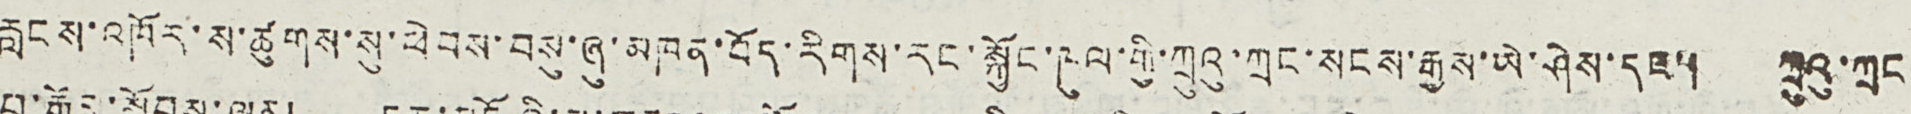རླངས་འཁོར་ས་ཚུགས་སུ་ཕེབས་བསུ་ཞུ་མཁན་བོད་རིགས་རང་སྐྱོང་ཁུལ་གྱི་ཀྲུའུ་ཀྲང་སངས་རྒྱས་ཡེ་ཤེས་དང་། ཀྲུའུ་ཀྲང
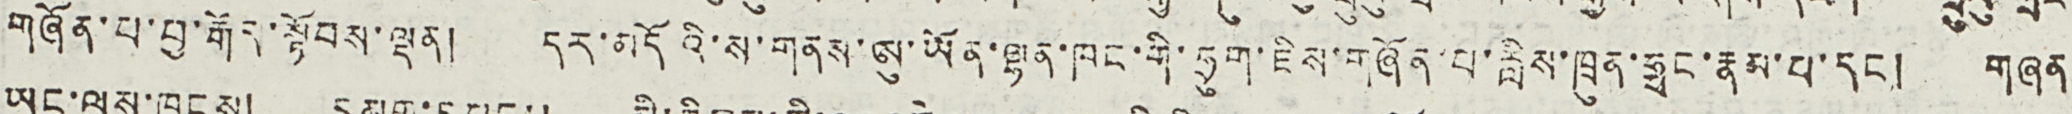གཞོན་པ་བྱ་རྒོད་སྟོབས་ལྡན། དར་མདོའི་ས་གནས་ཨུ་ཡོན་ལྷན་ཁང་གི་ཧྲུག་ཇིས་གཞོན་པ་རླིས་ཁྲུན་ཧྥང་རྣམ་པ་དང ། གཞན
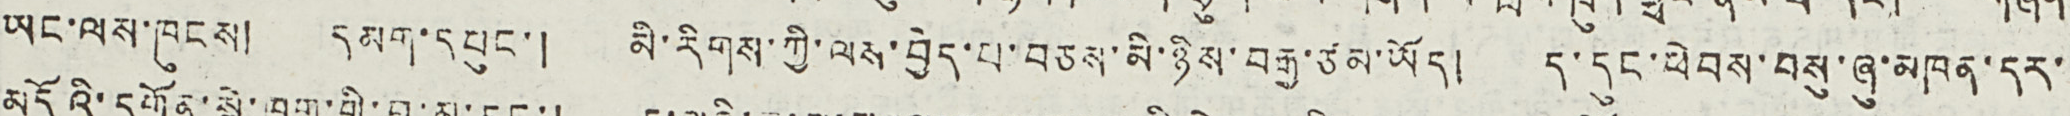ཡང་ལས་ཁུངས། དམག་དཔུང་། མི་རིགས་ཀྱི་ལས་བྱེད་པ་བཅས་མི་ཉིས་བརྒྱ་ཙམ་ཡོད། ད་དུང་ཕེབས་བསུ་ཞུ་མཁན་དར་
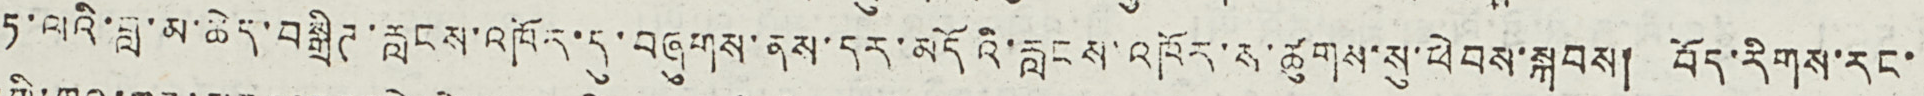ཏ་ལའི་བླ་མ་ཆེད་བསྒྲིཊ་རླངས་འཁོར་དུ་བཞུགས་ནས་དར་མདོའི་རླངས་འཁོར་ས་ཚུགས་སུ་ཕེབས་སྐབས། བོད་རིགས་རང་
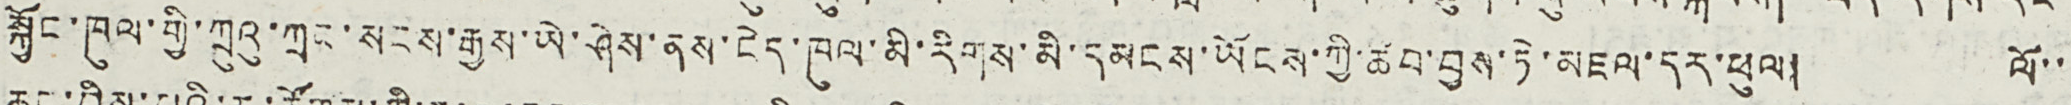སྐྱོང་ཁུལ་གྱི་ཀྲུའུ་ཀྲང་སངས་རྒྱས་ཡེ་ཤེས་ནས་ངེད་ཁུལ་མི་རིགས་མི་དམངས་ཡོངས་ཀྱི་ཚབ་བྱས་ཏེ་མཇལ་དར་ཕུལ། ལོ་་
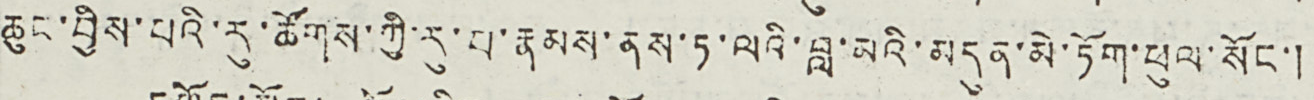ཆུང་བྱིས་པའི་རུ་ཚོགས་ཀྱི་རུ་པ་རྣམས་ནས་ཏ་ལའི་བླ་མའི་མདུན་མེ་ཏོག་ཕུལ་སོང་།
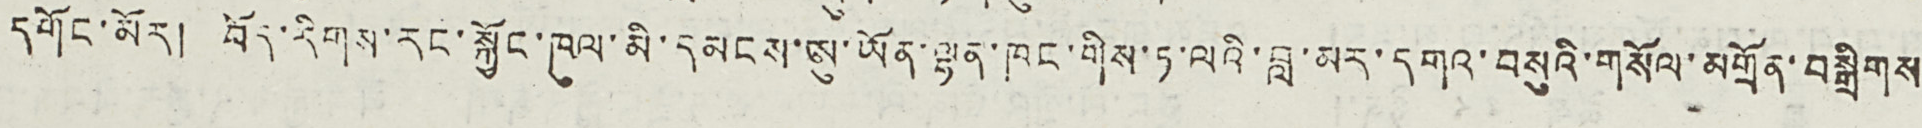དགོང་མོར། བོད་རིགས་རང་སྐྱོང་ཁུལ་མི་དམངས་ཨུ་ཡོན་ལྷན་ཁང་གིས་ཏ་ལའི་བླ་མར་དགའ་བསུའི་གསོལ་མགྲོན་བསྒྲིགས
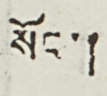སོང་།
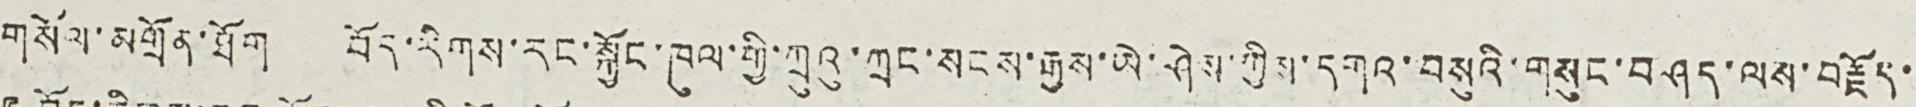གསོལ་མགྲོན་ཐོག བོད་རིགས་རང་སྐྱོང་ཁུལ་གྱི་ཀྲུའུ་ཀྲང་སངས་རྒྱས་ཡེ་ཤེས་ཀྱིས་དགའ་བསུའི་གསུང་བཤད་ལས་བརྗོད་
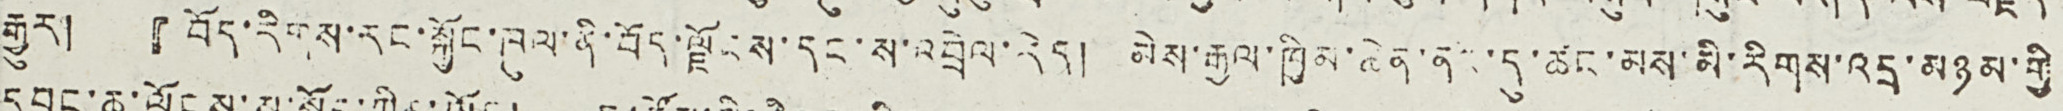རྒྱུར། 『བོད་རིགས་རང་སྐྱོང་ཁུལ་ནི་བོད་ལྗོངས་དང་ས་འབྲེལ་རེད། མེས་རྒྱལ་ཁྱིམ་ཆེན་ནང་དུ་ཚང་མས་མི་རིགས་འདྲ་མཉམ་གྱི
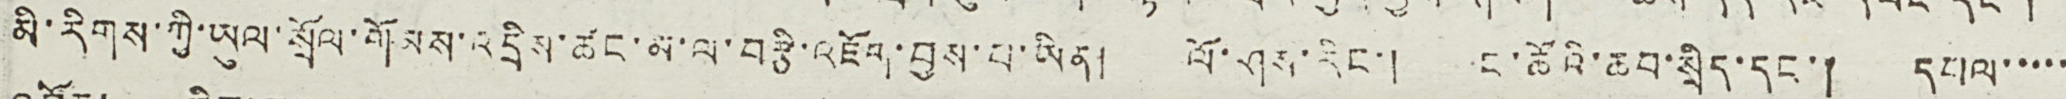མི་རིགས་ཀྱི་ཡུལ་སྲོལ་གོམས་འདྲིས་ཚང་མ་ལ་བརྩི་འཇོག་བྱས་པ་ཡིན། ལོ་ཤས་རིང་། ང་ཚོའི་ཆབ་སྲིད་དང་། དཔལ་་་་་
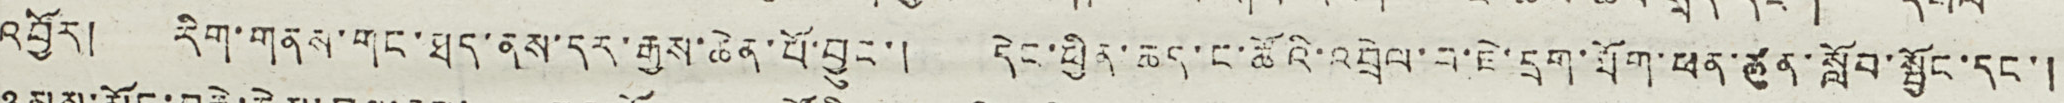འབྱོར། རིག་གནས་གང་ཐད་ནས་དར་རྒྱས་ཆེན་པོ་བྱུང་། དེང་ཕྱིན་ཆད་ང་ཚོའི་འབྲེལ་བ་ཇེ་དྲག་ཐོག་ཕན་ཚུན་སློབ་སྦྱོང་དང་།
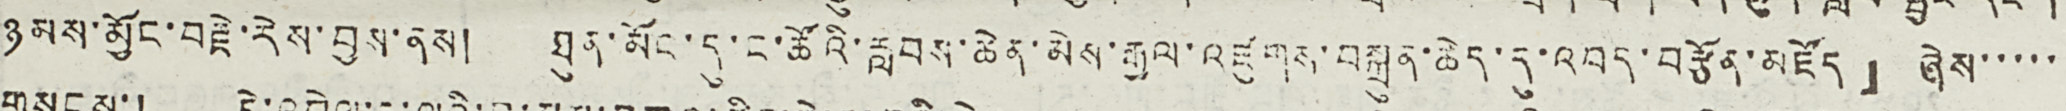ཉམས་མྱོང་བརྗེ་རེས་བྱས་ནས། ཐུན་མོང་དུ་ང་ཚོའི་རླབས་ཆེན་མེས་རྒྱལ་འཛུགས་བསྐྲུན་ཆེད་དུ་འབད་བརྩོན་མཛོད』ཞེས་་་་་
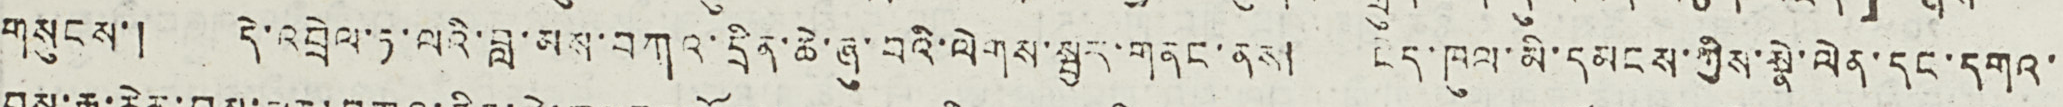གསུངས་། དེ་འབྲེལ་ཏ་ལའི་བླ་མས་བཀའ་དྲིན་ཆེ་ཞུ་བའི་ལེགས་སྦྱར་གནང་ནས། ངེད་ཁུལ་མི་དམངས་ཀྱིས་སྣེ་ལེན་དང་དགའ་
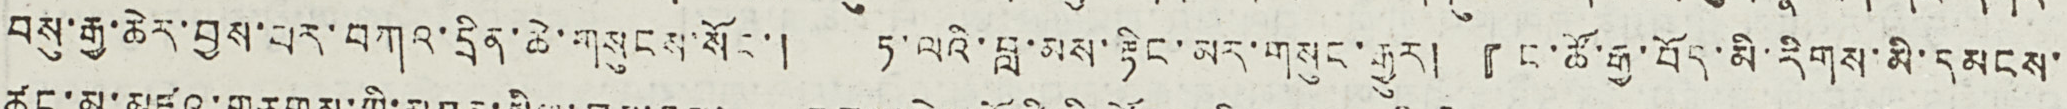བསུ་རྒྱ་ཆེར་བྱས་པར་བཀའ་དྲིན་ཆེ་གསུངས་སོང་། ཏ་ལའི་བླ་མས་རྟིང་མར་གསུང་རྒྱུར། 『ང་ཚོ་རྒྱ་བོད་མི་རིགས་མི་དམངས་
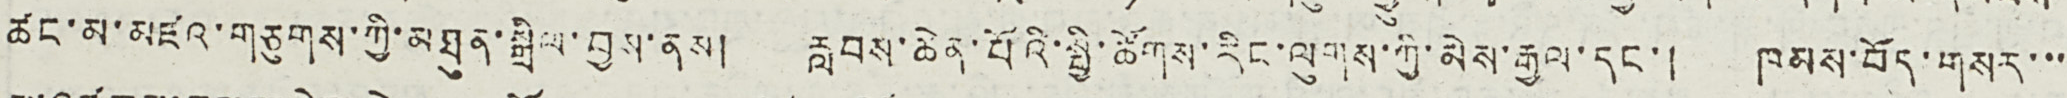ཚང་མ་མཛའ་གཅུགས་ཀྱི་མཐུན་སྒྲིལ་བྱས་ནས། རླབས་ཆེན་པོའི་སྤྱི་ཚོགས་རིང་ལུགས་ཀྱི་མེས་རྒྱལ་དང་། ཁམས་བོད་གསར་་
